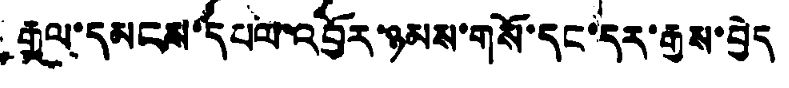རྒྱལ་དམངས་དཔལ་འབྱོར་ཉམས་གསོ་དང་དར་རྒྱས་བྱེད
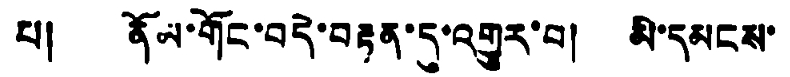པ། ནོམ་གོང་བདེ་བརྟན་དུ་འགྱུར་བ། མི་དམངས་
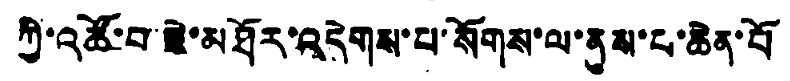ཀྱི་འཚོ་བ་ཇེ་མཐོར་འདེགས་པ་སོགས་ལ་ནུས་པ་ཆེན་པོ
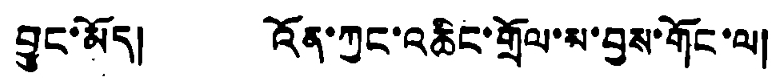བྱུང་མོད། འོན་ཀྱང་འཆིང་གྲོལ་མ་བྱས་གོང་ལ།
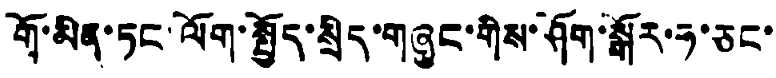གོ་མིན་ཏང་ལོག་སྤྱོད་སྲིད་གཞུང་གིས་ཤོག་སྒོར་ཧ་ཅང་
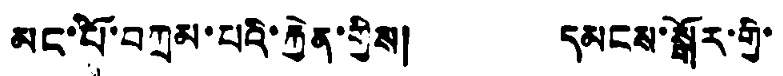མང་པོ་བཀྲམ་པའི་རྐྱེན་གྱིས། དམངས་སྒོར་གྱི་
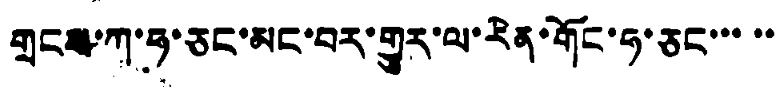གྲངས་ཀ་ཧ་ཅང་མང་བར་གྱུར་ལ་རིན་གོང་ཧ་ཅང་་་་་
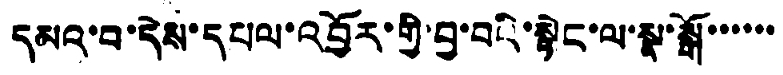དམའ་བ་དེས་དཔལ་འབྱོར་གྱི་བྱ་བའི་སྟེང་ལ་སྣ་སྒོ་་་་་་
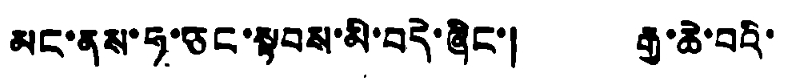མང་ནས་ཧ་ཅང་སྟབས་མི་བདེ་ཞིང་། རྒྱ་ཆེ་བའི་
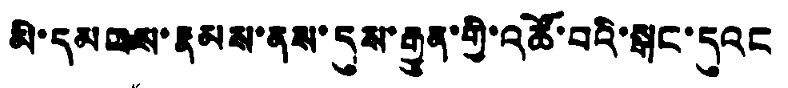མི་དམངས་རྣམས་ནས་དུས་རྒྱུན་གྱི་འཚོ་བའི་སྒང་དུའང
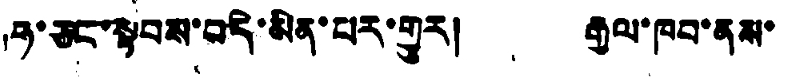ཧ་ཅང་སྟབས་བདེ་མིན་པར་གྱུར། རྒྱལ་ཁབ་ནས་
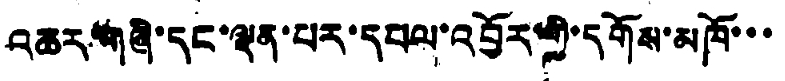འཆར་གཞི་དང་ལྡན་པར་དཔལ་འབྱོར་གྱི་དགོས་མཁོ་་་
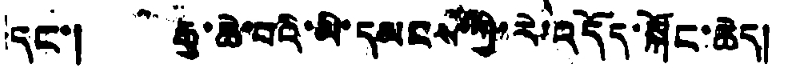དང་། རྒྱ་ཆེ་བའི་མི་དམངས་ཀྱི་རེ་འདོད་སྐོང་ཆེད།
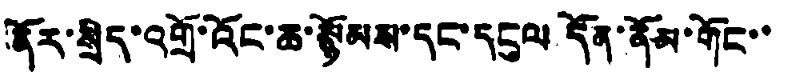ནོར་སྲིད་འགྲོ་འོང་ཆ་སྙོམས་དང་དངུལ དོན་ནོམ་གོང་་
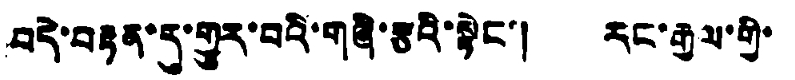བདེ་བརྟན་དུ་གྱུར་བའི་གཞི་རྩའི་སྟེང་། རང་རྒྱལ་གྱི་
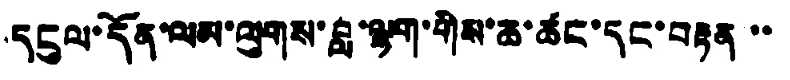དངུལ་དོན་ལམ་ལུགས་བླ་ལྷག་གིས་ཆ་ཚང་དང་བརྟན་་
